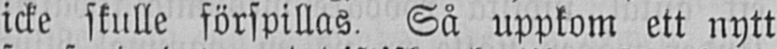icke skulle förspillas. Så uppkom ett nytt
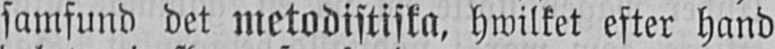samfund det metodistiska, hwilket efter hand
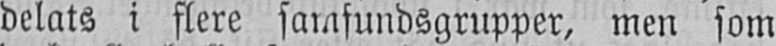delats i flere samfundsgrupper, men som
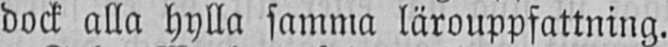dock alla hylla samma lärouppfattning.
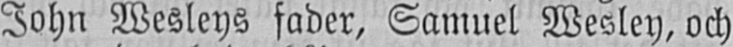John Wesleys fader, Samuel Wesley, och
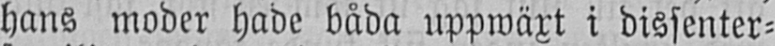hans moder hade båda uppwäxt i dissenter-
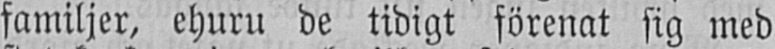familjer, ehuru de tidigt förenat sig med
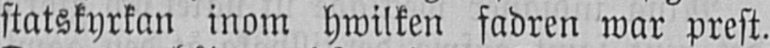statskyrkan inom hwilken fadren war prest.
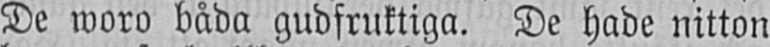De woro båda gudfruktiga. De hade nitton
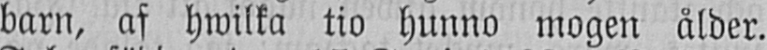barn, af hwilka tio hunno mogen ålder.
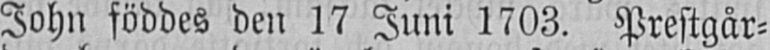John föddes den 17 Juni 1703. Prestgår-
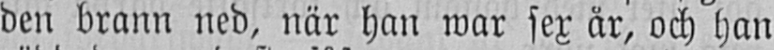den brann ned, när han war sex år, och han
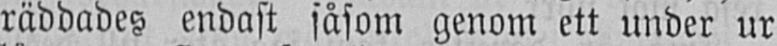räddades endast såsom genom ett under ur
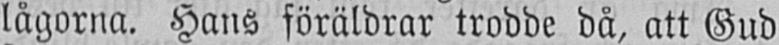lågorna. Hans föräldrar trodde då, att Gud
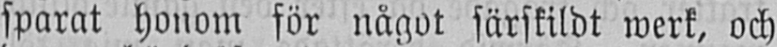sparat honom för något särskildt werk, och
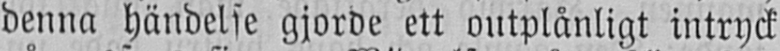denna händelse gjorde ett outplånligt intryck
